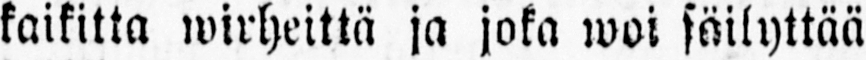kaikitta wirheittä ja joka woi säilyttää
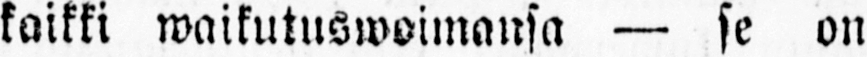kaikki waikutuswoimansa — se on
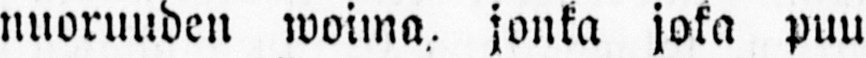nuoruuden woima, jonka joka puu
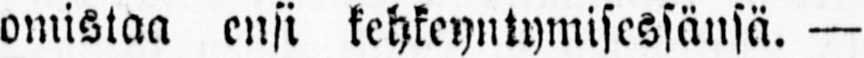omistaa ensi kehkeyntymisessänsä. —
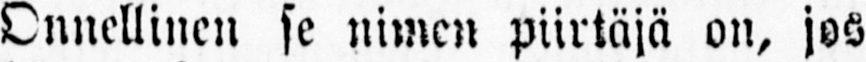Onnellinen se nimen piirtäjä on, jos
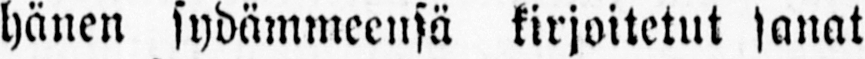hänen sydämmeensä kirjoitetut janat
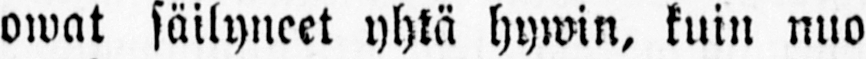owat säilyneet yhtä hywin, kuin nuo
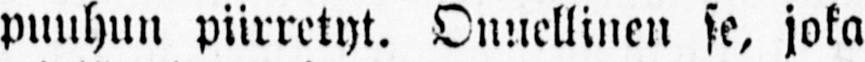puuhun piirretyt. Onnellinen se, joka
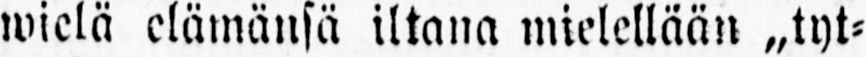wielä elämänsä iltana mielellään „tyt-
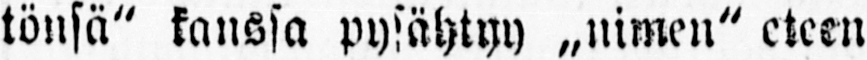tönsä" kanssa pysähtyy „nimen" eteen
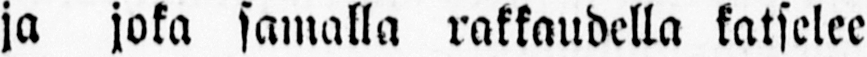ja joka samalla rakkaudella katselee
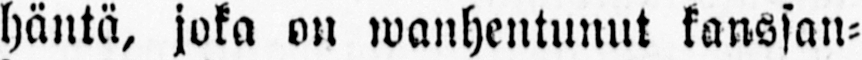häntä, joka on wanhentunut kanssan-
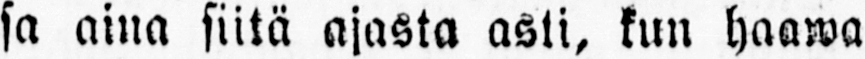sa aina siitä ajasta asti, kun haawa
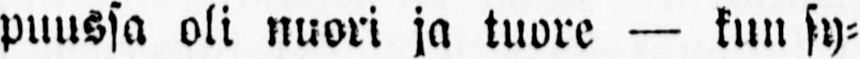puussa oli nuori ja tuore — kun sy-
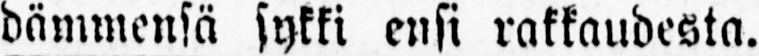dämmensä sykki ensi rakkaudesta.
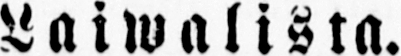Laiwalista.
